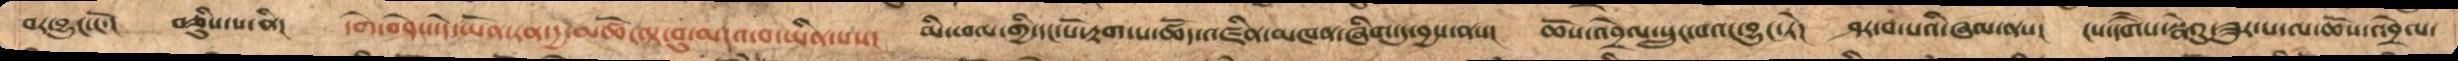བར་བྱུང་ངོ་།   བཅིུས་པ་ནི།  དགེ་བཤེས་དེ་ཡོན་ཏན་དྱ་མཚོ་ལྟ་བུ་མངའ་བ་ཡིན་པས།   མི་ཕལ་གྱི་དང་པོ་རྟག་པ་ཚོད་འཛིན་མཁན་ཞིག་དུ་བྱས་ནས།   ཆོས་འབྲེལ་སྲུང་བའང་བྱུང་ཏེ།   ཤར་བ་པའི་ཞལ་ནས།   ངས་དགཻས་སྣེའུ་ཟུར་པ་ལ་ཆོས་འབྲེལ་
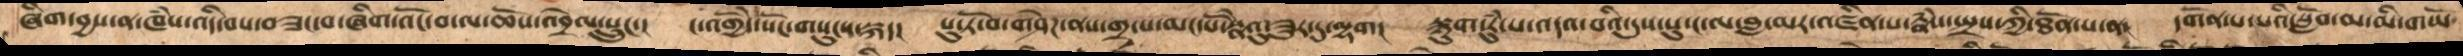ཞིག་བྱས་ན་ཁཾས་འདི་བས་བཟང་བ་ཞིག་འོང་བ་ལ་ཆོས་འབྲེལ་སྲུང་།   ང་འགྱོདེ་སོང་གསུངས་སྐད།   པུ་ཏོ་བ་གཤེཌ་ནས་གྲ་པ་མང་པོ་སྣེའུ་ཟུར་དུ་ལྷག།   སྙུག་རུཾ་པ་འདའ་བའི་དུས་སུ་ང་ལ་བླ་མར་འཛིན་པ་རྣཾས་སྤྲས་ཀྱི་ཐོན་པ་ན།  དགོན་པ་པའི་སློབ་མ་མི་གཡོ་
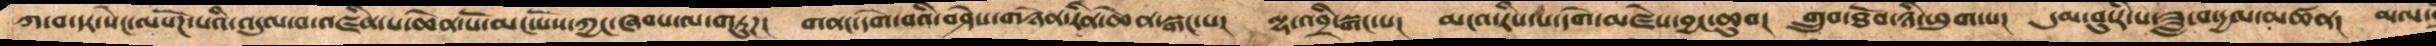ཀ་བ་དར་སེང་ལསོཌ་པའི་འདུལ་བ་འཛིན་པ་ཆེན་པོ་མང་པོས་ཀྱང་ཞབས་ལ་གཏུཌ།  གནང་དགེ་བའི་བཤེས་གཉེན་རིན་ཆེན་སྒང་པ།  ལྷ་འབྲི་སྒང་པ།  མངའ་རིས་པ་དགེ་མཛེས་བྱང་ཆུབ།   གྲུབ་ཐོབ་ཉི་ཕུག་པ།  དུམ་བུ་རི་པ་ཟླ་བ་དྱལ་མཚན།  མལ་
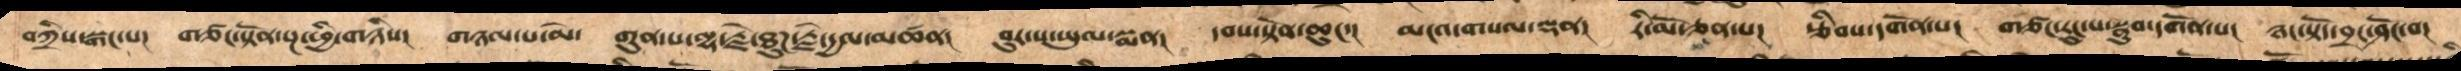བཀྲིས་སྒང་པ།  གཙང་སྟོན་སྔ་ཕྱི་གཉིས།  གཉལ་པ་མེ་   གུན་པ་ལྷ་རྗེ་ཐུཌ་རྗེ་དྱལ་མཚན།  བུར་ས་ཡུལ་སྨན།  དབས་སྟོན་ཆུང་།  མངའ་གསལ་ལྡན།  རི་མོ་ཅན་པ།  རྩིབས་དགོན་པ།  གཙང་རུང་པ་སྣུབ་དགོན་པ།  ཉང་སྟོད་བྲང་ཤོང་པ།
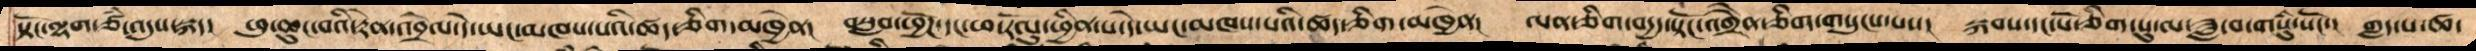སྟོང་ལྷག་ཙཾ་འདུས་སྐད་   ཕུ་ཆུང་བའི་རྟེན་འབྲེལ་དེ་ཡང་མཁས་པའི་ཚད་ཅིག་མཁྱེན།  བསླབ་ཕྱོཌ་དང་ཕ་རོལུ་ཕྱིན་པ་དེ་ཡང་མཁས་པའི་ཚད་ཅིག་མཁྱེན།  ལན་ཅིག་བདྱད་སྟོང་འགྲཻན་ཅིག་གསུངས་པས།  སྐབས་དང་པོ་ཅིག་པུ་ལ་ཟླ་བ་གསུཾ་སོང་།   ཀླད་པ་ཚ་
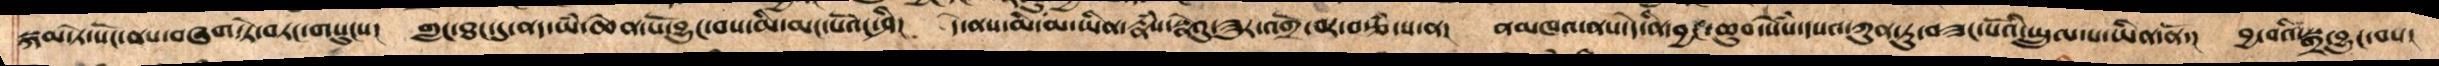སྐམ་ཏེ་སོང་ནས་བཞག་ཏེ་བཏང་གསུངས།   གླང་ཐང་དུ་ནད་ཡཾ་ཆེན་པོ་བྱུང་བས་མི་མང་པོའང་ཤི།   དེ་ནས་མི་མ་ཡིན་རྣཾས་སྣེའུ་ཟུར་འགྲོ་བར་བརྩཾ་པ་ན།   ནམཁའ་ནས་དེ་ནི་བྱང་ཆུབ་སེསཾ་དཔའ་ཀུན་ཏུ་བཟང་པོའི་སྤྲུལ་པ་ཡིན་ནོ་།   བྱ་བའི་སྒྲ་བྱུང་བས་
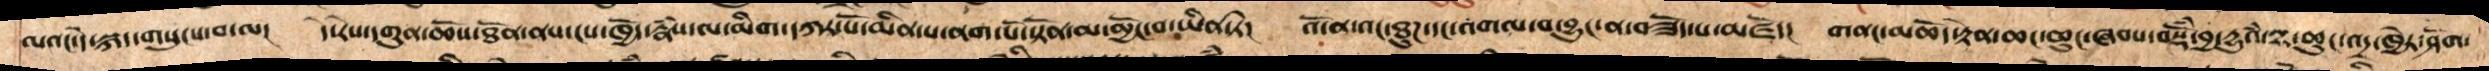ལའང་དེ་སྐད་གསུངས་བ་ལ།   དེ་རེས་དགུན་ཆོས་ཐོན་ནས་ངས་ཁྱེད་རྣཾས་ལ་མིག་དཀར་པོ་མིན་པ་ནག་པོ་སྟོན་མ་མྱོང་བ་ཡིན་ཏེ།   འོ་ན་འང་ཐུཌ་དང་འགལ་བ་བྱུང་ན་བཟོད་པ་མཛོད།   གནང་མཆོད་རྟེན་ཆང་ཆུང་ཞབས་སྡོཾ་བྱ་དྱུའཾ་ལྷ་ཆུང་འདྲ་ཁྱེར་ཤོག་
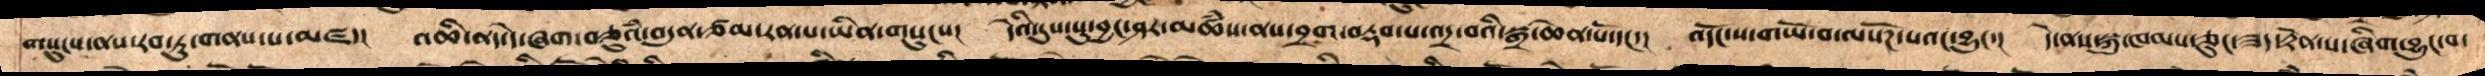གསུངས་ནས་རབ་ཏུ་གནས་པ་མཛད།   འཆི་ནད་དེ་ཞག་བཅུའཾ་བདུན་ཙམ་རན་པ་ཡིན་གསུངས།   དེའི་དུས་སུ་བྱང་ཤར་མཚཾས་ནས་བྲག་བརྡབ་པ་འདྲ་བའི་སྒྲ་ཆེན་པོ་དང་།   འདོང་ས་གཡོ་བ་ལསོཌ་པའང་བྱུང་།   དེ་ནས་སྐུ་ཁམས་ཅུང་ཟད་རྟེན་ས་ཞིག་བྱུང་བ་
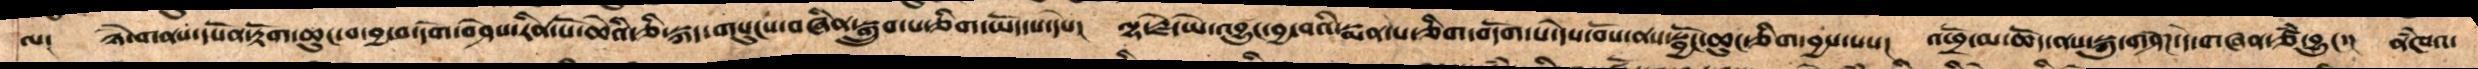ལ།  ཉེ་གནས་དཔོན་རྟོག་ཆུང་བ་དགེ་བཤེས་རིན་པོ་ཆེའི་ཇི་སྐད་གསུངས་བཞིན་སྒྲུབ་པ་ཅིག་ཡོད་པ་དེས།   ལྷ་རྗེ་ཡེ་འབྱུང་བྱ་བའི་སྨན་པ་ཅིག་བདོག་པ་དེས་བོས་ནས་སྦྱོང་ཆུང་ཅིག་བྱས་པས།   འཕྲོ་མ་ཆོད་ནས་སྐུ་གཤེཌ་དེ་གཞན་ཙཾ་བྱུང་།   ནཾཁའ་
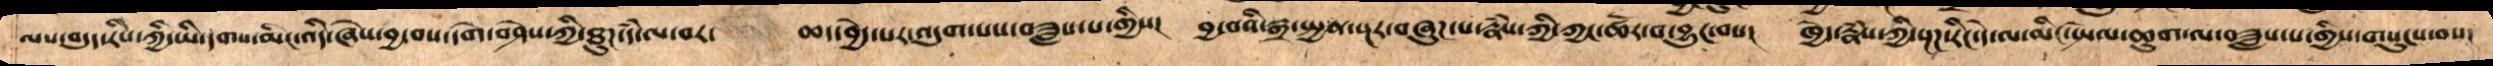ལས་བདུད་རིས་ཀྱི་ཡི་དགས་མིང་འདི་ཞེས་བྱ་བས་དགེ་བཤེས་ཀྱི་ཐུཌ་དཾ་ལ་བར་    ཆད་བྱེད་པར་འདུག་པས་བཟླས་པ་གྱིས།   བྱ་བའི་སྒྲ་སྤྱན་སྔར་བཞུཌ་པ་རྣཾས་ཀྱི་ཀྱང་ཚོར་བ་བྱུང་བས།   ཁྱེད་རྣཾས་ཀྱི་སྔཌ་རིང་དེ་ལ་མིང་སྤེལ་ཆུག་ལ་བཟླས་པ་གྱིས་གསུངས་བས།
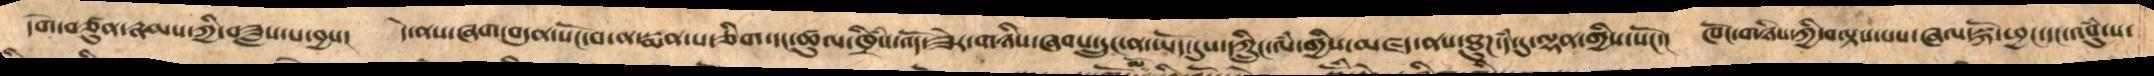དགེ་བཙུན་རྣམས་ཀྱིས་བཟླས་པ་བྱས།   དེ་ནས་ཞག་བདུན་སོང་བ་ན་སྨན་པ་ཅིག་དང་ཚུལ་ཁྲིཾས་འོད་ཟེར་གཉིས་ཞབས་དྲུང་ན་ཡོད་དུས་དཀྲིུང་ལཾ་གྱིས་མཛད་ནས་ཐུཌ་དཾ་དུ་ལྷན་གྱིས་སོང་།   ཁོང་གཉིས་ཀྱི་བལྟས་པས་ཞལ་སྐོ་ཕྱང་དང་འབུཾ་པ་
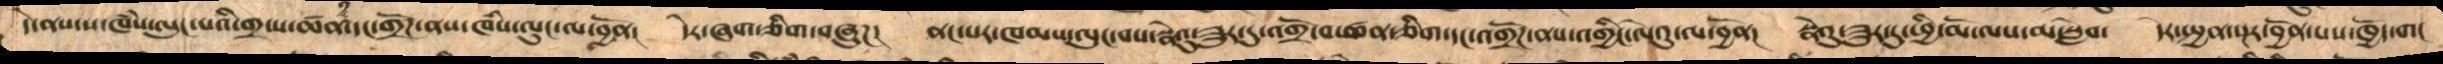དེ་ནས་ས་ཁཾས་ལུང་པའི་གྲངས་ཚན་༡་དང་གྲོཌ་ནས་ཁཾས་ལུང་ལ་བྱོན། དེར་ཞག་ཅིག་བཞུཌ། ནང་པར་ཁམས་ལུང་པས་སྣེའུ་ཟུར་དུ་འགྲོ་བ་ཚན་ཅིག་དང་འགྲོཌ་ནས་འགྱིང་ལེའུ་ལ་བྱོན། སྣེའུ་ཟུར་དུ་ཕྱི་མོ་ལས་མ་སླེབ་ དེར་སྤྱན་སྔར་བྱོན་པས་ཁྱོད་གང
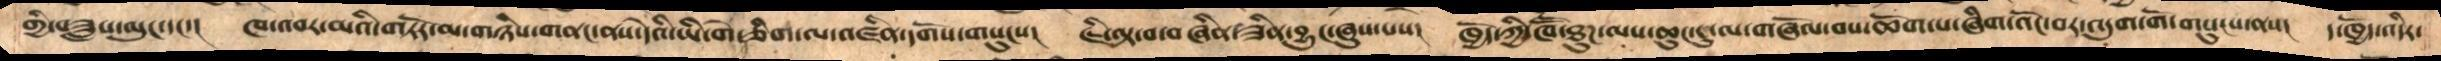གྱི་བཟླས་ལུང་དང་།   ཁ་འབར་མའི་གཏོར་མ་གཉིས་གནང་ནས་དེའི་ཡི་གེ་ཅིག་ལ་འཛིན་དགོས་གསུངས།  ཇི་ལྟ་བ་བཞིན་ཟིན་བྱུང་ཞུས་པས།   ཁྱོད་ཀྱི་ཁཽ་ཐུཌ་ལས་ཆུང་ངུ་ལ་གཞོལ་བས་ཆོག་པ་ཞིག་འོང་བར་འདུག་གོ་གསུངས་ནས།   ད་ཁྱོད་འདིར་
